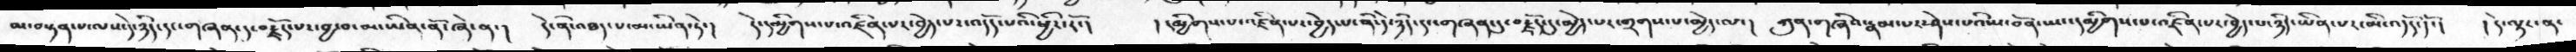མ་བསྟན་པ་ལས་དེ་ཉིད་དང་གཞན་དུ་བརྗོད་པར་བྱ་བ་མ་ཡིན་ནོ་ཞེ་ན་།  དེ་ནི་འཐད་པ་མ་ཡིན་ཏེ་།  དེ་དམྱིགས་པ་འཛིན་པར་བྱེད་པར་འདོད་པའི་ཕྱིར་རོ་།   །དམྱིགས་པ་འཛིན་པར་བྱེད་པ་ནི་དེ་ཉིད་རང་གཞན་དུ་བརྗོད་དུ་མྱེད་པར་གྲགས་པ་མྱེད་ལ་།   ཀུན་གཞིའ་རྣམ་པར་ཤེས་པའི་ས་བོན་ཡང་དམྱིགས་པ་འཛིན་པར་བྱེད་པ་ཉིད་ཡིན་པར་མི་འདོད་དོ་།   །དེ་ལྟར་ན་
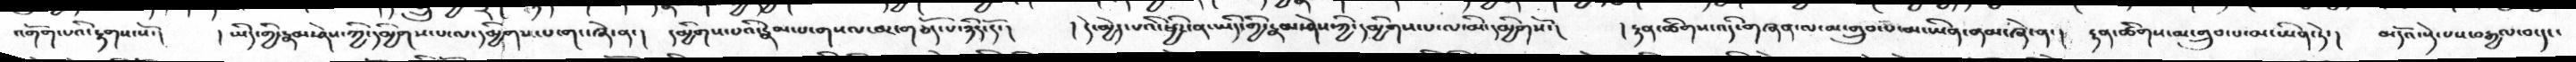འགོག་པའི་རྟགས་སོ་།    ། ཡིད་གྱི་རྣམ་ཤེས་ཀྱི་དམྱིགས་པ་ལ་དམྱིགས་པ་གང་ཞེ་ན་།   དམྱིགས་པའི་རྣམ་པ་གསལ་བར་གཅོད་པ་ཉིད་དོ་།   ། དེ་མྱེད་པའི་ཕྱིར་ན་ཡིད་གྱི་རྣམ་ཤེས་ཀྱི་དམྱིགས་པ་ལ་མི་དམྱིགསོ་།     ། རྟན་ཚིགས་འདི་གཞན་ལ་མ་གྲུབ་པ་མ་ཡིན་ནམ་ཞེ་ན་།    རྟན་ཚིགས་མ་གྲུབ་པ་མ་ཡིན་ཏེ་།  མདོའ་སྡེ་པས་བརྒྱལ་བ་དང་
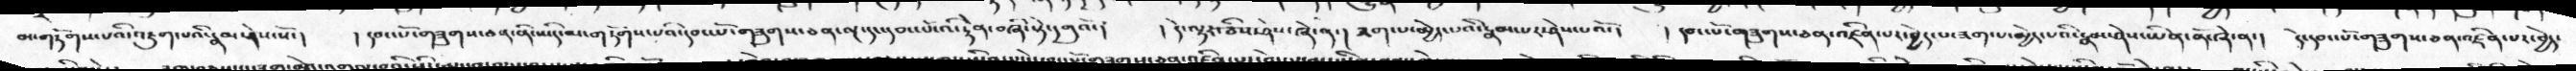མ་གཏོགས་པའི་འཇུག་པའི་རྣམ་ཤེས་སོ་།   །དབང་པོ་གཟུགས་ཅན་ནི་ཡིད་མ་གཏོགས་པའི་དབང་པོ་གཟུགས་ཅན་ལྔ་དང་དབང་པོ་འི་རྟེན་བཞི་སྟེ་དགུའོ་།   །དེ་ལྟར་ཅིས་ཤེས་ཞེས་ན་། ཟག་པ་མྱེད་པའི་རྣམ་པར་ཤེས་པའོ་།    ། དབང་པོ་གཟུགས་ཅན་འཛིན་པར་བྱེད་པ་ཟག་པ་མྱེད་པའི་རྣམ་ཤེས་ཡིན་ནོ་ཞེ་ན་།  དེ་དབང་པོ་གཟུགས་ཅན་འཛིན་པར་བྱེད་
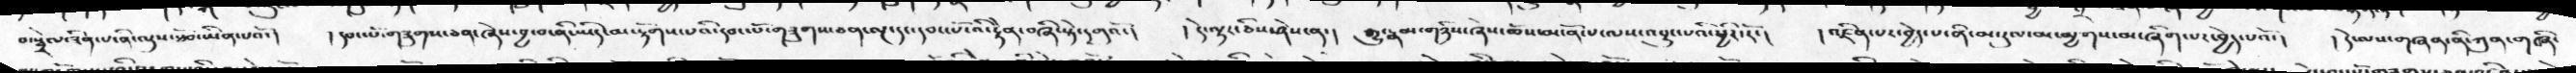བ་སྦྲེལ་ཟིན་པ་ནི་ལུས་ཐོབ་ཡིན་པའོ་།   །དབང་པོ་གཟུགས་ཅན་ཞེས་བྱ་བ་ནི་ཡིད་མ་རྟོགས་པའི་དབང་པོ་གཟུགས་ཅན་ལྔ་དང་དབང་པོ་འི་རྟེན་བཞི་སྟེ་དགུའོ་།   ། དེ་ལྟར་ཅིས་ཤེས་ན་།   རྒྱུ་རྣམ་གཉིས་ཞེས་ཆོས་མངོན་པ་ལས་འབྱུང་བའི་ཕྱིར་རོ་།   །འཛིན་པར་བྱེད་པ་ནི་མ་རུལ་མ་མྱགས་མ་ཞིག་པར་བྱེད་པའོ་།   ། དེ་ལས་གཞན་ནི་ཀུན་གཞི་
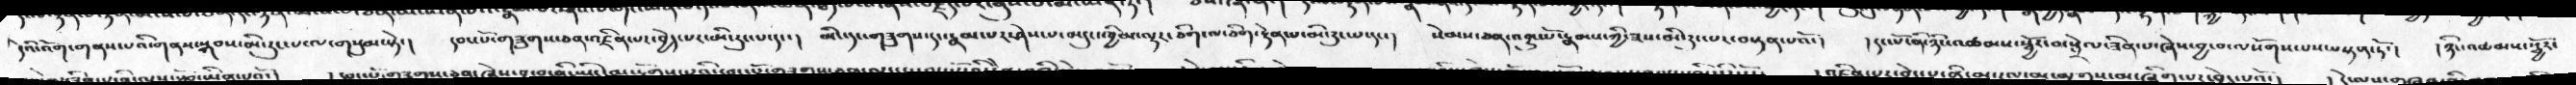དེའི་འོག་གནས་པའི་གནས་སྐབས་མི་རུང་པ་ལ་གསུམ་སྟེ་།   དབང་པོ་གཟུགས་ཅན་འཛིན་པར་བྱེད་པར་མི་རུང་པ་དང་།   མིང་དང་གཟུགས་དང་རྣམ་པར་ཤེས་པ་མདུང་ཁྱིམ་ལྟར་ཅིག་ལ་ཅིག་རྟེན་པ་མི་རུང་པ་དང་།   སེམས་ཅན་འབྱུང་པོ་རྣམས་ཀྱི་ཟས་མི་རུང་པར་བསྟན་པའོ་།   །དང་པོ་ནི་ཉིང་འཚམས་སྦྱོར་བ་སྦྲེལ་ཟིན་པ་ཞེས་བྱ་བ་ལསོགས་པས་བསྟན་ཏོ་།   །ཉིང་འཚམས་སྦྱོར་
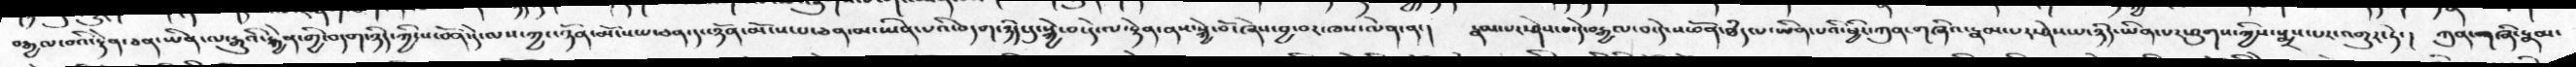བརྒྱལ་བའི་རྟེན་ཅན་ཡིན་ལ་རྒྱུའི་རྐྱེན་གྱི་བདག་ཉིད་ཀྱི་ས་བོན་དེ་ལས་ཀྱང་ཉོན་མོངས་པ་ཅན་དང་ཉོན་མོངས་པ་ཅན་མ་ཡིན་པའི་བདག་ཉིད་དུ་སྐྱེ་བ་དེ་ལ་རྟེན་ནས་སྐྱེ་བོ་ཞེས་བྱ་བར་ཁས་ལེན་ན་།   རྣམ་པར་ཤེས་པ་དེ་བརྒྱལ་བ་དེ་ས་བོན་ཐཾད་པ་ཡིན་པའི་ཕྱིར་ཀུན་གཞིའ་རྣམ་པར་ཤེས་པ་ཉིད་ཡིན་པར་ཕུགས་ཀྱིས་སྨྲས་པར་འགྱུར་ཏེ་།   ཀུན་གཞི་རྣམ་
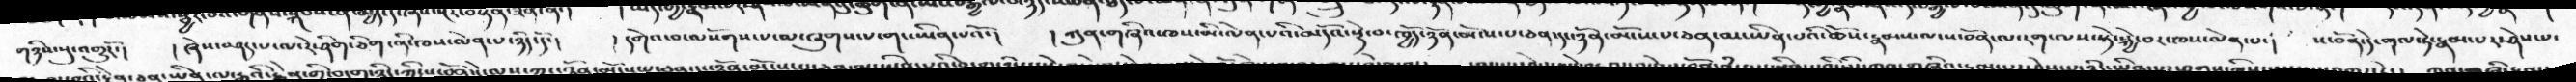གཉིས་སུ་འགྱུརོ་།   །ཞེས་བཤད་པ་ལ་རེ་ཤིག་ཅིག་ནི་ཁས་ལེན་པ་ཉིད་དོ་།   །དགེའ་བ་ལསོགས་པ་མ་ཞུགས་པ་གང་ཡིན་པའོ་།   །ཀུན་གཞིའ་ཁས་མི་ལེན་པའི་མདོའ་སྡེ་བ་ཁྱོད་ཉོན་མོངས་པ་ཅན་དང་ཉོན་མོངས་པ་ཅན་མ་ཡིན་པའི་ཆོས་རྣམས་ལ་ས་བོན་ལ་རག་ལས་སྟེ་སྐྱེ་བར་ཁས་ལེན་པ་།  ས་བོན་དེ་གལ་སྟེ་རྣམ་པར་ཤེས་པ་
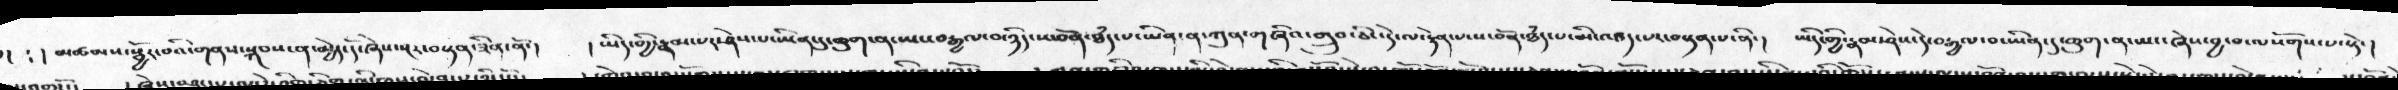་།  ༴ །མཚམས་སྦྱོར་བའི་གནས་སྐབས་ན་མྱེད་དོ་ཞེས་སྔར་བསྟན་ཟིན་ནོ་།   །ཡིད་གྱི་རྣམ་པར་ཤེས་པ་ཡིན་དུ་ཆུག་ན་ཡས་བརྒྱལ་བ་ཉིད་ས་བོན་ཐཾད་པ་ཡིན་ན་ཀུན་གཞིའ་གྲུབ་ཅིང་དེ་ལ་རྟེན་པ་ས་བོན་ཐཾད་པ་མི་འཐད་པར་བསྟན་པ་ནི་།  ཡིད་གྱི་རྣམ་ཤེས་དེ་བརྒྱལ་བ་ཡིན་དུ་ཆུག་ན་ཡང་ཞེས་བྱ་བ་ལསོགས་པ་སྟེ་།
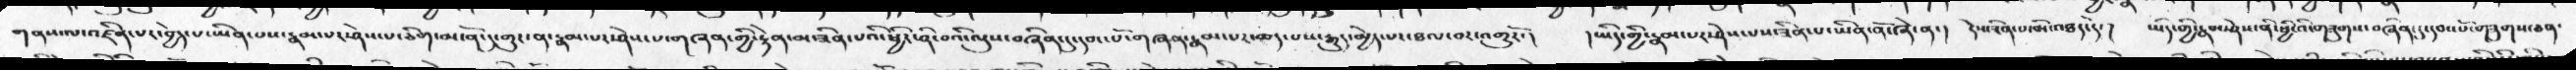གནས་ལ་འཛིན་པར་བྱེད་པ་ཡིན་པས་རྣམ་པར་ཤེས་པ་ཅིག་མངོན་དུ་གྱུར་ན་རྣམ་པར་ཤེས་པ་གཞན་གྱི་རྟེན་མ་ཟིན་པའི་ཕྱིར་ཤི་བའི་ལུས་བཞིན་དུ་དབང་པོ་གཞན་རྣམ་པར་ཆད་པས་རྒྱུད་མྱེད་པར་ཐལ་བར་འགྱུརོ་།   །ཡིད་གྱི་རྣམ་པར་ཤེས་པས་ཟིན་པ་ཡིན་ནོ་ཞེ་ན་།   དེས་ཟིན་པ་མི་འཐད་དེ་།   ཡིད་གྱི་རྣམ་ཤེས་ནི་ཕྱིའི་གཟུགས་བཞིན་དུ་དབང་པོ་གཟུགས་ཅན་
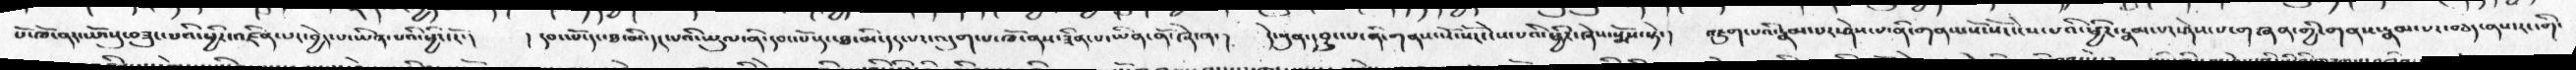པོ་ཁོ་ནར་ཡོངསུ་བཟུང་པའི་ཕྱིར་འཛིན་པར་བྱེད་པ་ཡིན་པའི་ཕྱིར་རོ་།   །དབང་པོ་དང་ཐ་མི་དད་པའི་ཡུལ་ནི་དབང་པོ་དང་ཐ་མི་དད་པར་འདུག་པ་ཁོ་ནས་ཟིན་པ་ཡིན་ནོ་ཞེ་ན་།  དེ་སུན་དབྱུང་པ་ནི་གནས་སོ་སོར་ངེས་པའི་ཕྱིར་ཞེས་སྨོས་སྟེ་།   འཇུག་པའི་རྣམ་པར་ཤེས་པ་ནི་གནས་སོ་སོར་ངེས་པའི་ཕྱིར་རྣམ་པར་ཤེས་པ་གཞན་གྱི་གནས་རྣམ་པར་བཅད་ནས་རང་གི་
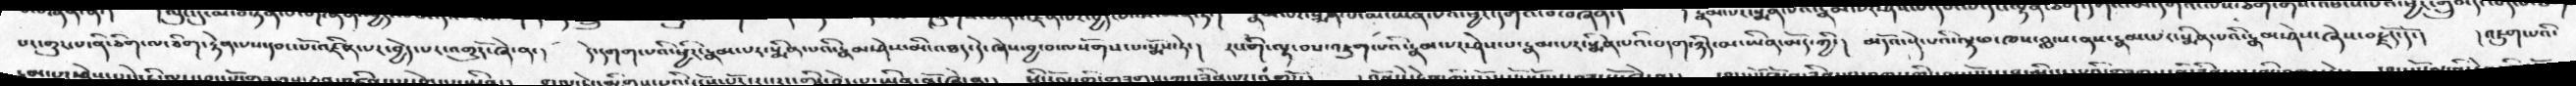པར་གྱུར་པ་ནི་ཅིག་ལ་ཅིག་རྟེན་པས་དབང་པོ་འཛིན་པར་བྱེད་པར་འགྱུརོ་ཞེ་ན་།  དེ་དགག་པའི་ཕྱིར་རྣམ་པར་སྨིན་པའི་རྣམ་ཤེས་མི་འཐད་དེ་ཞེས་བྱ་བ་ལསོགས་པ་སྨོས་ཏེ་།   རང་གི་ལྟ་བས་འཇུག་པའི་རྣམ་པར་ཤེས་པ་རྣམ་པར་སྨིན་པའི་བདག་ཉིད་མ་ཡིན་མོད་ཀྱི་།  མདོའ་སྡེ་པའི་ལྟ་བ་ཁས་བླངས་ནས་རྣམ་པར་སྨིན་པའི་རྣམ་ཤེས་ཞེས་བརྗོད་དོ་།   །འཇུག་པའི་
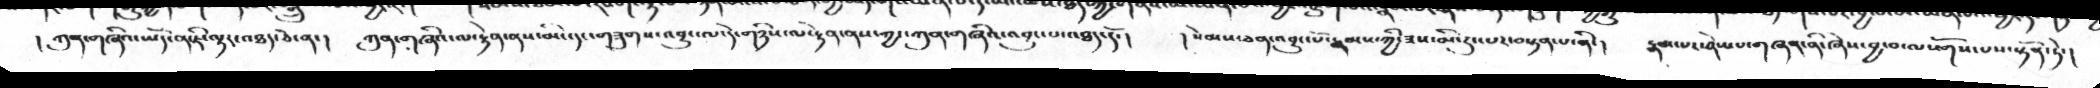།ཀུན་གཞིའ་ཡོད་ན་ཇི་ལྟར་འཐད་ཅེ་ན་།  ཀུན་གཞིའ་ལ་རྟེན་ནས་མི་དང་གཟུགས་འབྱུང་ལ་དེ་གཉིས་ལ་རྟེན་ནས་ཀྱང་ཀུན་གཞིའ་འབྱུང་པ་འཐད་དོ་།   །སེམས་ཅན་འབྱུང་པོ་རྣམས་ཀྱི་ཟས་མི་རུང་པར་བསྟན་པ་ནི་།  རྣམ་པར་ཤེས་པ་གཞན་ནི་ཞེས་བྱ་བ་ལསོགས་པས་སྟོན་ཏེ་།
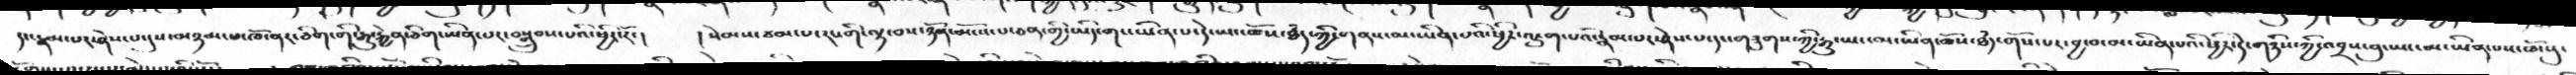དང་རྣམ་པར་ཤེས་པ་དུས་མཉམ་པ་ཁོ་ནར་ཅིག་གི་རྒྱུ་རྐྱེན་ཅིག་ཡིན་པར་བསྒྲུབས་པའི་ཕྱིར་རོ་།   །སེམས་ཙམ་པ་རང་གི་ལྟ་བས་ཉོན་མོངས་པ་ཅན་གྱི་ཡིད་གང་ཡིན་པ་དེ་ཡང་ཆོས་ཐཾད་ཀྱི་གནས་མ་ཡིན་པའི་ཕྱིར་འཇུག་པའི་རྣམ་པར་ཤེས་པ་དང་གཟུགས་ཀྱི་རྒྱུ་ཡང་མ་ཡིན་ཆོས་ཐཾད་གོས་པར་བྱ་བ་མ་ཡིན་པའི་ཕྱིར་དེ་གཉིས་ཀྱི་འབྲས་བུ་ཡང་མ་ཡིན་པས་ཁོངསུ་
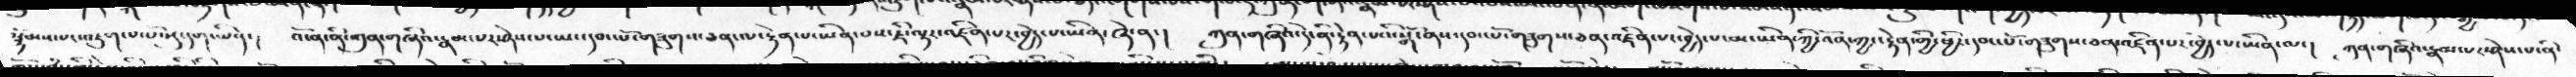སྙོམས་པར་འཇུག་པ་པོ་སུ་དག་ཡིན་།  འོ་ན་ནི་ཀུན་གཞིའ་རྣམ་པར་ཤེས་པ་ཡང་དབང་པོ་གཟུགས་ཅན་ལ་རྟེན་པ་ཡིན་པས་ཇི་ལྟར་འཛིན་པར་བྱེད་པ་ཡིན་ཞེ་ན་།   ཀུན་གཞི་དེ་ནི་རྟེན་པའི་སྒོ་ནས་དབང་པོ་གཟུགས་ཅན་འཛིན་པར་བྱེད་པ་མ་ཡིན་ཀྱི་འོན་ཀྱང་རྟེན་གྱི་ཕྱིར་དབང་པོ་གཟུགས་ཅན་འཛིན་པར་བྱེད་པ་ཡིན་ལ་།    ཀུན་གཞིའ་རྣམ་པར་ཤེས་པ་ནི་
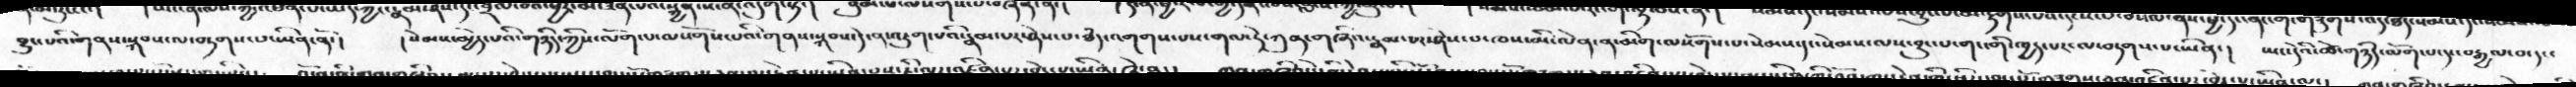བྱུང་པའི་གནས་སྐབས་ལ་བཏགས་པ་ཡིན་ནོ་།   །སེམས་མྱེད་པའི་གཉིད་ཀྱིས་ལོག་པ་ལསོགས་པའི་གནས་སྐབས་དེ་ན་འཇུག་པའི་རྣམ་པར་ཤེས་པ་ཐཾད་འགགས་པས་གལ་ཏེ་ཀུན་གཞིའ་རྣམ་པར་ཤེས་པ་ཁས་མི་ལེན་ན་མིག་ལསོགས་པ་སེམས་དང་སེམས་ལས་བྱུང་པ་གང་གི་ཁྱད་པར་ལ་བཏགས་པ་ཡིན་།   ཡང་དེའི་ཚེ་གཉིད་ལོག་པ་དང་བརྒྱལ་བ་དང་
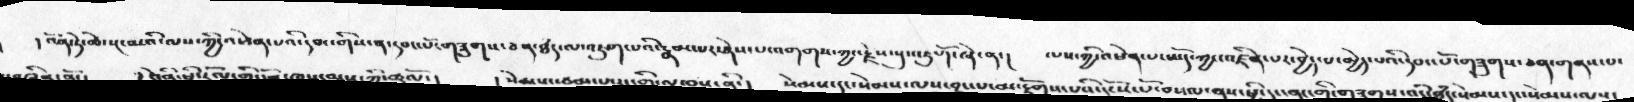།འོན་ཏེ་ཚེ་སྔ་མའི་ལས་ཀྱི་འཕེན་པའི་དབང་གིས་ན་དབང་པོ་གཟུགས་ཅན་ཐདཾ་ལ་འཇུག་པའི་རྣམ་པར་ཤེས་པ་འགགས་ཀྱང་རྗེས་སུ་འཇུགོ་ཞེ་ན་།   ལས་ཀྱི་འཕེན་པ་ཡོད་ཀྱང་འཛིན་པར་བྱེད་པ་མྱེད་པའི་དབང་པོ་གཟུགས་ཅན་གནས་པ་
